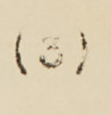(3)
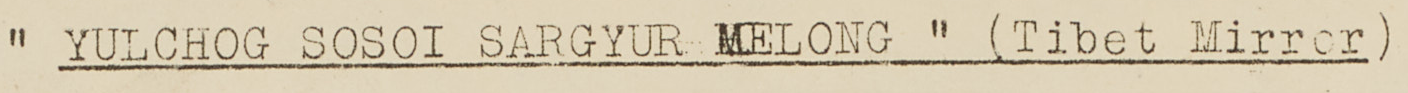" YULCHOG SOSOI SARGYUR MELONG " (Tibet Mirror)
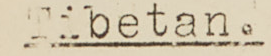Tibetan.
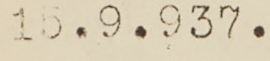15.9.937.
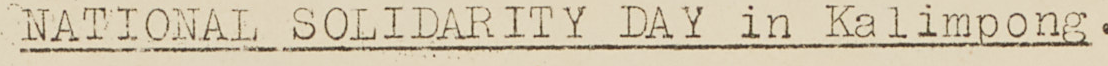NATIONAL SOLIDARITY DAY in Kalimpong.
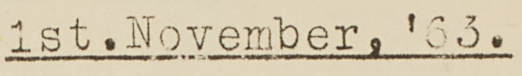1st. November, '63.
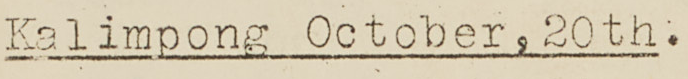Kalimpong October, 20th.
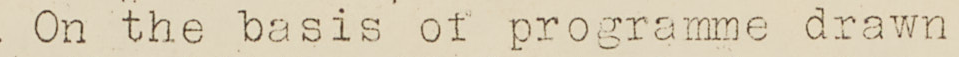On the basis of programme drawn
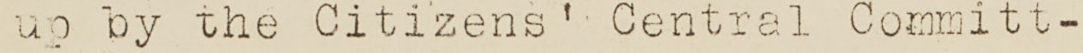up by the Citizens Central Committ-
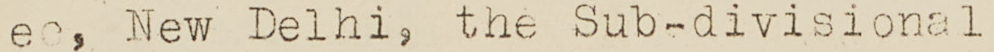ee, New Delhi, the Sub-divisional
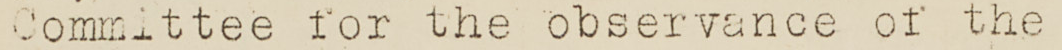Committee for the observance of the
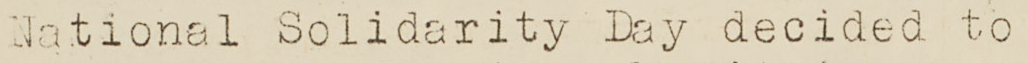National Solidarity Day decided to
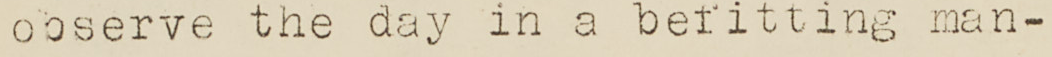observe the day in a befitting man-
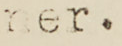er.
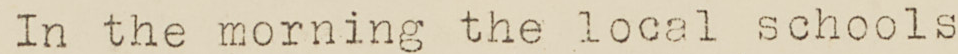In the morning the local schools
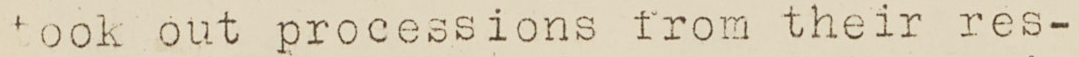took out processions from their res-
